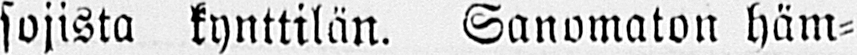sojista kynttilän. Sanomaton häm-
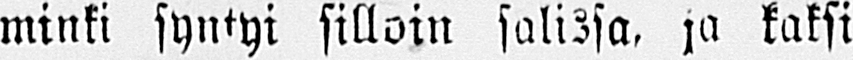minki syntyi silloin salissa, ja kaksi
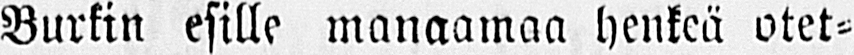Burkin esille manaamaa henkeä otet-
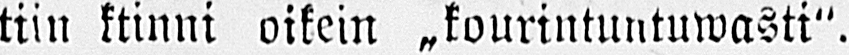tiin ktinni oikein „kourintuntuwasti".
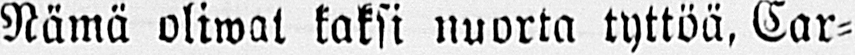Nämä oliwat kaksi nuorta tyttöä, Car-
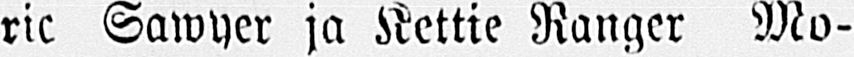ric Sawyer ja Kettie Ranger Mo-
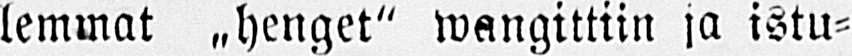lemmat „henget" wangittiin ja istu-
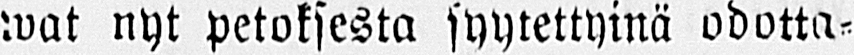wat nyt petoksesta syytettyinä odotta-
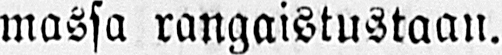massa rangaistustaan.
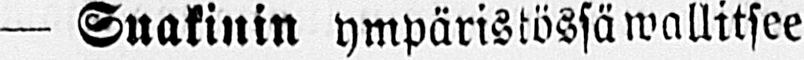—Suakinin ympäristössä wallitsee
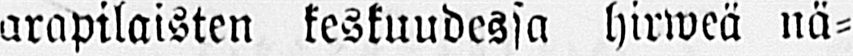arapilaisten keskuudessa hirweä nä-
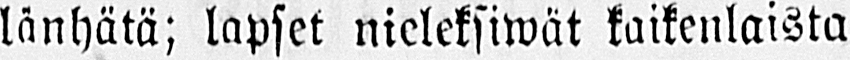länhätä; lapset nieleksiwät kaikenlaista
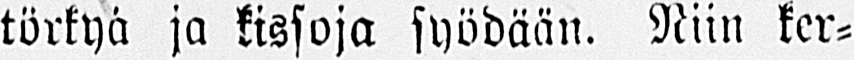törkyä ja kissoja syödään. Niin ker-
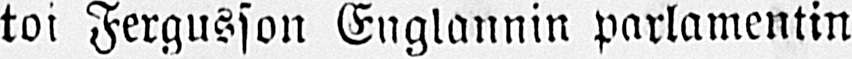toi Fergusson Englannin parlamentin
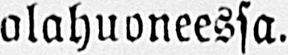alahuoneessa.
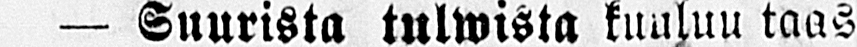- Suurista tulwista kuuluu taas
